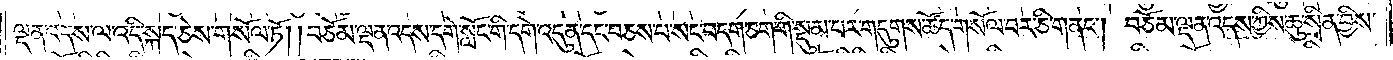ལྡན་འདས་ལ་འདི་སྐད་ཅེས་གསོལ་ཏོ། །བཅོམ་ལྡན་འདས་དགེ་སློང་གི་དགེ་འདུན་དང་བཅས་པ་སང་བདག་ཅག་གི་སྡུམ་པར་གདུགས་ཚོད་གསོལ་བར་ཅི་གནང༌། བཅོམ་ལྡན་འདས་ཀྱིས་ཆུ་སྲིན་བྱིས་
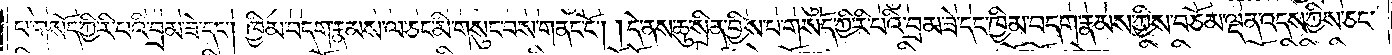པ་གསོད་ཀྱི་རི་པའི་བྲམ་ཟེ་དང༌། ཁྱིམ་བདག་རྣམས་ལ་ཅང་མི་གསུང་བས་གནང་ངོ༌། །དེ་ནས་ཆུ་སྲིན་བྱིས་པ་གསོད་ཀྱི་རི་པའི་བྲམ་ཟེ་དང་ཁྱིམ་བདག་རྣམས་ཀྱིས་བཅོམ་ལྡན་འདས་ཀྱིས་ཅང་
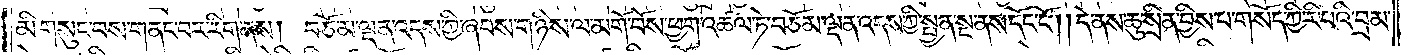མི་གསུང་བས་གནང་བར་རིག་ནས། བཅོམ་ལྡན་འདས་ཀྱི་ཞབས་གཉིས་ལ་མགོ་བོས་ཕྱག་འཚལ་ཏེ་བཅོམ་ལྡན་འདས་ཀྱིས་སྤྱན་སྔ་ནས་དོང་ངོ༌། །དེ་ནས་ཆུ་སྲིན་བྱིས་པ་གསོད་ཀྱི་རི་པའི་བྲམ་
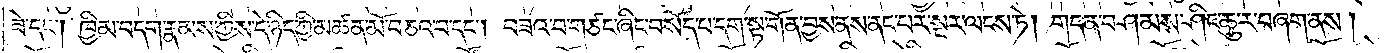ཟེ་དང༌། ཁྱིམ་བདག་རྣམས་ཀྱིས་དེ་ཉིད་ཀྱིས་མཚན་མོ་བཅའ་བ་དང༌། བཟའ་བ་གཙང་ཞིང་བསོད་པ་དག་སྟ་གོན་བྱས་ནས་ནང་པར་སྔར་ལངས་ཏེ། གདན་བཤམས་ཤིང་ཆུར་བཞག་ནས།
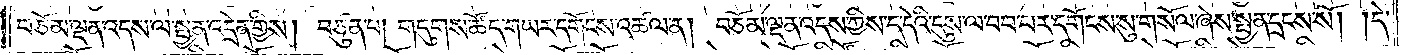བཅོམ་ལྡན་འདས་ལ་སྤྱན་འདྲེན་གྱིས། བཙུན་པ། གདུགས་ཚོད་གཡར་དགོངས་འཚལ་ན། བཅོམ་ལྡན་འདས་ཀྱིས་ད་དེའི་དུས་ལ་བབ་པར་དགོངས་སུ་གསོལ་ཞེས་སྤྱན་དྲངས་སོ། །དེ་
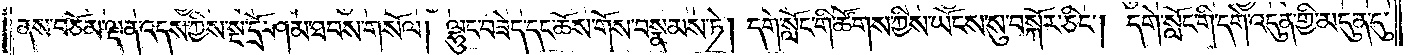ནས་བཅོམ་ལྡན་འདས་ཀྱིས་སྔ་དྲོ་ཤམ་ཐབས་གསོལ། ལྷུང་བཟེད་དང་ཆོས་གོས་བསྣམས་ཏེ། དགེ་སློང་གི་ཚོགས་ཀྱིས་ཡོངས་སུ་བསྐོར་ཅིང༌། དགེ་སློང་གི་དགེ་འདུན་གྱི་མདུན་དུ་
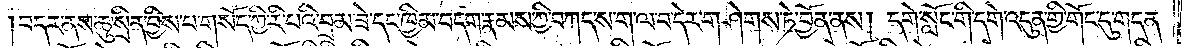བདར་ནས་ཆུ་སྲིན་བྱིས་པ་གསོད་ཀྱི་རི་པའི་བྲམ་ཟེ་དང་ཁྱིམ་བདག་རྣམས་ཀྱི་བཀད་ས་ག་ལ་བ་དེར་གཤེགས་ཏེ་བྱོན་ནས། དགེ་སློང་གི་དགེ་འདུན་གྱི་གོང་དུ་གདན་
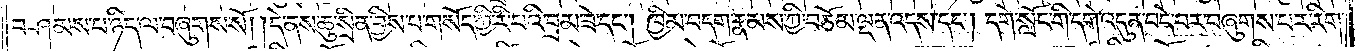བཤམས་པ་ཉིད་ལ་བཞུགས་སོ། །དེ་ནས་ཆུ་སྲིན་བྱིས་པ་གསོད་ཀྱི་རི་པའི་བྲམ་ཟེ་དང༌། ཁྱིམ་བདག་རྣམས་ཀྱི་བཅོམ་ལྡན་འདས་དང༌། དགེ་སློང་གི་དགེ་འདུན་བདེ་བར་བཞུགས་པར་རིག་
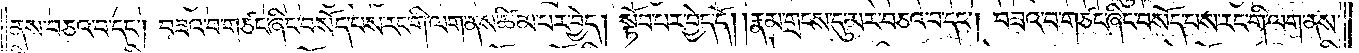ནས་བཅའ་བ་དང༌། བཟའ་བ་གཙང་ཞིང་བསོད་པས་རང་གི་ལག་ནས་ཚིམ་པར་བྱེད། སྟོབ་པར་བྱེད་དོ། །རྣམ་གྲངས་དུ་མར་བཅའ་བ་དང༌། བཟའ་བ་གཙང་ཞིང་བསོད་པས་རང་གི་ལག་ནས་
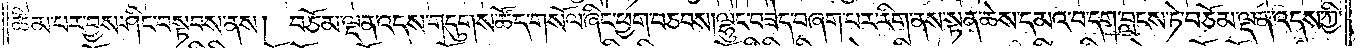ཚིམ་པར་བྱས་ཤིང་བསྟབས་ནས། བཅོམ་ལྡན་འདས་གདུགས་ཚོད་གསོལ་ཞིང་ཕྱག་བཅབས། ལྷུང་བཟེད་བཞག་པར་རིག་ནས་སྟན་ཆེས་དམའ་བ་དག་བླངས་ཏེ་བཅོམ་ལྡན་འདས་ཀྱི་
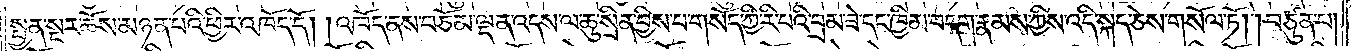སྤྱན་སྔར་ཆོས་མཉན་པའི་ཕྱིར་འཁོད་དོ། །འཁོད་ནས་བཅོམ་ལྡན་འདས་ལ་ཆུ་སྲིན་བྱིས་པ་གསོད་ཀྱི་རི་བའི་བྲམ་ཟེ་དང་ཁྱིམ་བདག་རྣམས་ཀྱིས་འདི་སྐད་ཅེས་གསོལ་ཏོ། །བཙུན་པ།
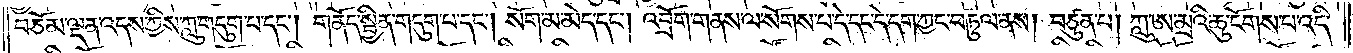བཅོམ་ལྡན་འདས་ཀྱིས་ཀླུ་གདུག་པ་དང༌། གནོད་སྦྱིན་གདུག་པ་དང༌། སོག་མ་མེད་དང༌། འབྲོག་གནས་ལ་སོགས་པ་དེ་དང་དེ་དག་ཀྱང་བཏུལ་ནས། བཙུན་པ། ཀླུ་ཨ་མྲའི་ཆུ་ངོགས་པ་འདི་
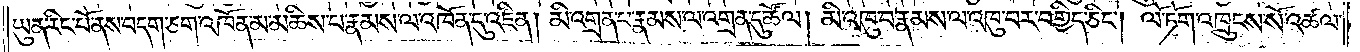ཡུན་རིང་པོ་ནས་བདག་ཅག་འཁོན་མ་མཆིས་པ་རྣམས་ལ་འཁོན་དུ་འཛིན། མི་འགྲན་པ་རྣམས་ལ་འགྲན་དུ་ཚོལ། མི་འཁུ་བ་རྣམས་ལ་འཁུ་བར་བགྱིད་ཅིང༌། ལོ་ཏོག་འཁྲུངས་སོ་འཚལ་
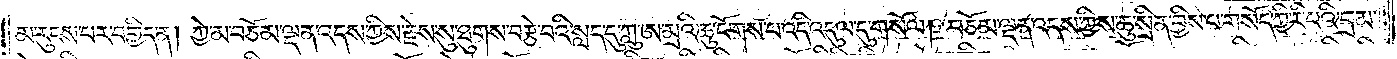མ་རུངས་པར་བགྱིད་ན། ཀྱེ་མ་བཅོམ་ལྡན་འདས་ཀྱིས་རྗེས་སུ་ཐུགས་བརྩེ་བའི་སླད་དུ་ཀླུ་ཨ་མྲའི་ཆུ་ངོགས་པ་འདི་འདུལ་དུ་གསོལ། བཅོམ་ལྡན་འདས་ཀྱིས་ཆུ་སྲིན་བྱིས་པ་གསོད་ཀྱི་རི་པའི་བྲམ་
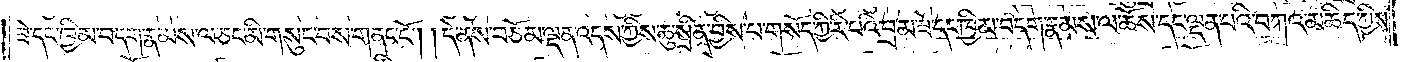ཟེ་དང་ཁྱིམ་བདག་རྣམས་ལ་ཅང་མི་གསུང་བས་གནང་ངོ༌། །དེ་ནས་བཅོམ་ལྡན་འདས་ཀྱིས་ཆུ་སྲིན་བྱིས་པ་གསོད་ཀྱི་རི་པའི་བྲམ་ཟེ་དང་ཁྱིམ་བདག་རྣམས་ལ་ཆོས་དང་ལྡན་པའི་བཀའ་མཆིད་ཀྱིས་
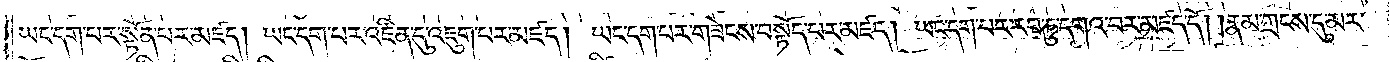ཡང་དག་པར་སྟོན་པར་མཛད། ཡང་དག་པར་འཛིན་དུ་འཇུག་པར་མཛད། ཡང་དག་པར་གཟེངས་བསྟོད་པར་མཛད། ཡང་དག་པར་རབ་ཏུ་དགའ་བར་མཛད་དོ། །རྣམ་གྲངས་དུ་མར་
